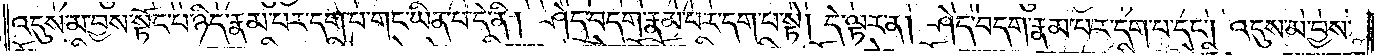འདུས་མ་བྱས་སྟོང་པ་ཉིད་རྣམ་པར་དག་པ་གང་ཡིན་བ་དེ་ནི། ཤེད་བདག་རྣམ་པར་དག་པ་སྟེ། དེ་ལྟར་ན། ཤེད་བདག་རྣམ་པར་དག་པ་དང༌། འདུས་མ་བྱས་
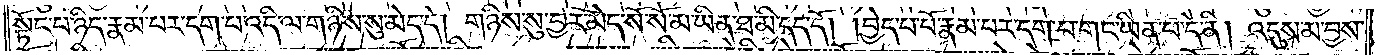སྟོང་པ་ཉིད་རྣམ་པར་དག་པ་འདི་ལ་གཉིས་སུ་མེད་དེ། གཉིས་སུ་བྱར་མེད་སོ་སོ་མ་ཡིན་ཐ་མི་དད་དོ། །བྱེད་པ་པོ་རྣམ་པར་དག་པ་གང་ཡིན་པ་དེ་ནི། འདུས་མ་བྱས་
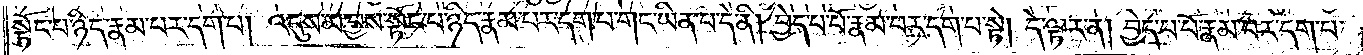སྟོང་པ་ཉིད་རྣམ་པར་དག་པ། འདུས་མ་བྱས་སྟོང་པ་ཉིད་རྣམ་པར་དག་པ་གང་ཡིན་པ་དེ་ནི། བྱེད་པ་པོ་རྣམ་པར་དག་པ་སྟེ། དེ་ལྟར་ན། བྱེད་པ་པོ་རྣམ་པར་དག་པ་གང་
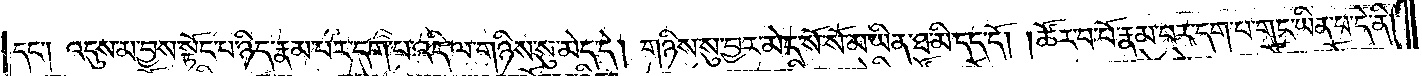དང༌། འདུས་མ་བྱས་སྟོང་པ་ཉིད་རྣམ་པར་དག་པ་འདི་ལ་གཉིས་སུ་མེད་དེ། གཉིས་སུ་བྱར་མེད་སོ་སོ་མ་ཡིན་ཐ་མི་དད་དོ། །ཚོར་བ་པོ་རྣམ་པར་དག་པ་གང་ཡིན་པ་དེ་ནི།
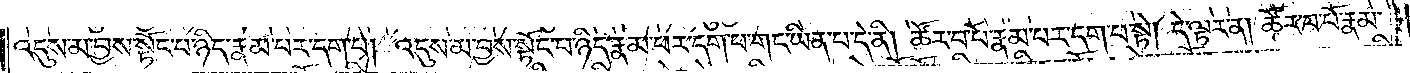འདུས་མ་བྱས་སྟོང་པ་ཉིད་རྣམ་པར་དག་པ། འདུས་མ་བྱས་སྟོང་པ་ཉིད་རྣམ་པར་དག་པ་གང་ཡིན་པ་དེ་ནི། ཚོར་པ་པོ་རྣམ་པར་དག་པ་སྟེ། དེ་ལྟར་ན། ཚོར་བ་པོ་རྣམ་
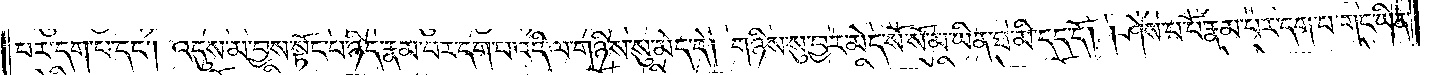པར་དག་པ་དང༌། འདུས་མ་བྱས་སྟོང་པ་ཉིད་རྣམ་པར་དག་པ་འདི་ལ་གཉིས་སུ་མེད་དེ། གཉིས་སུ་བྱར་མེད་སོ་སོ་མ་ཡིན་ཐ་མི་དད་དོ། །ཤེས་པ་པོ་རྣམ་པར་དག་པར་གང་ཡིན་
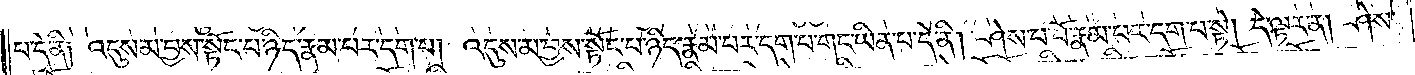པ་དེ་ནི། འདུས་མ་བྱས་སྟོང་པ་ཉིད་རྣམ་པར་དག་པ། འདུས་མ་བྱས་སྟོང་པ་ཉིད་རྣམ་པར་དག་པ་གང་ཡིན་པ་དེ་ནི། ཤེས་པ་པོ་རྣམ་པར་དག་པ་སྟེ། དེ་ལྟར་ན། ཤེས་
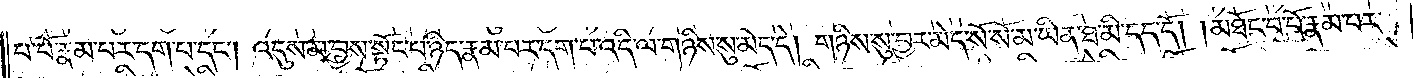པ་པོ་རྣམ་པར་དག་པ་དང༌། འདུས་མ་བྱས་སྟོང་པ་ཉིད་རྣམ་པར་དག་པ་འདི་ལ་གཉིས་སུ་མེད་དེ། གཉིས་སུ་བྱར་མེད་སོ་སོ་མ་ཡིན་ཐ་མི་དད་དོ། །མཐོང་བ་པོ་རྣམ་པར་
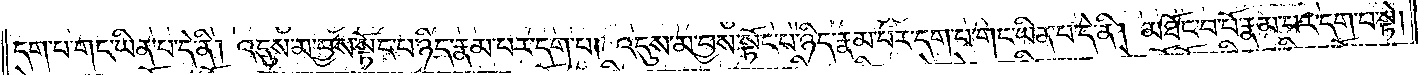དག་པ་གང་ཡིན་པ་དེ་ནི། འདུས་མ་བྱས་སྟོང་པ་ཉིད་རྣམ་པར་དག་པ། འདུས་མ་བྱས་སྟོང་པ་ཉིད་རྣམ་པར་དག་པ་གང་ཡིན་པ་དེ་ནི། མཐོང་བ་པོ་རྣམ་པར་དག་པ་སྟེ།
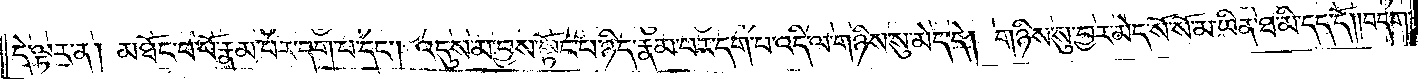དེ་ལྟར་ན། མཐོང་བ་པོ་རྣམ་པར་དག་པ་དང༌། འདུས་མ་བྱས་སྟོང་པ་ཉིད་རྣམ་པར་དག་པ་འདི་ལ་གཉིས་སུ་མེད་དེ། གཉིས་སུ་བྱར་མེད་སོ་སོ་མ་ཡིན་ཐ་མི་དད་དོ། །བདག་
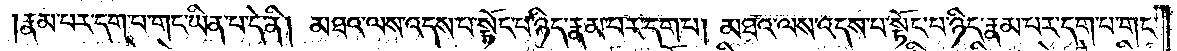རྣམ་པར་དག་པ་གང་ཡིན་པ་དེ་ནི། མཐའ་ལས་འདས་པ་སྟོང་པ་ཉིད་རྣམ་པར་དག་པ། མཐའ་ལས་འདས་པ་སྟོང་པ་ཉིད་རྣམ་པར་དག་པ་གང་
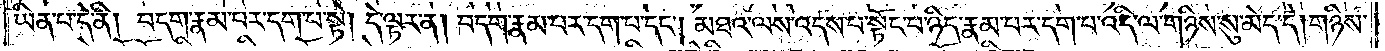ཡིན་པ་དེ་ནི། བདག་རྣམ་པར་དག་པ་སྟེ། དེ་ལྟར་ན། བདག་རྣམ་པར་དག་པ་དང༌། མཐའ་ལས་འདས་པ་སྟོང་པ་ཉིད་རྣམ་པར་དག་པ་འདི་ལ་གཉིས་སུ་མེད་དེ། གཉིས་
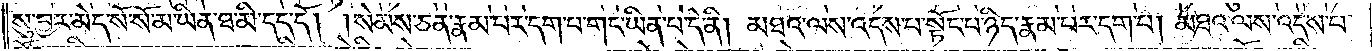སུ་བྱར་མེད་སོ་སོ་མ་ཡིན་ཐ་མི་དད་དོ། །སེམས་ཅན་རྣམ་པར་དག་པ་གང་ཡིན་པ་དེ་ནི། མཐའ་ལས་འདས་པ་སྟོང་པ་ཉིད་རྣམ་པར་དག་པ། མཐའ་ལས་འདས་པ་
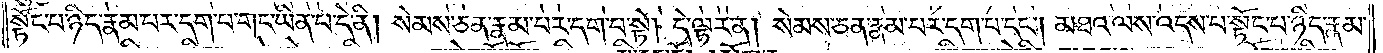སྟོང་པ་ཉིད་རྣམ་པར་དག་པ་གང་ཡིན་པ་དེ་ནི། སེམས་ཅན་རྣམ་པར་དག་པ་སྟེ། དེ་ལྟར་ན། སེམས་ཅན་རྣམ་པར་དག་པ་དང༌། མཐའ་ལས་འདས་པ་སྟོང་པ་ཉིད་རྣམ་
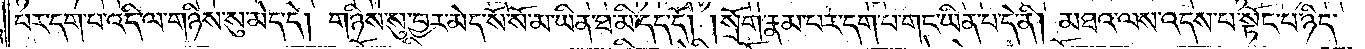པར་དག་པ་འདི་ལ་གཉིས་སུ་མེད་དེ། གཉིས་སུ་བྱར་མེད་སོ་སོ་མ་ཡིན་ཐ་མི་དད་དོ། །སྲོག་རྣམ་པར་དག་པ་གང་ཡིན་པ་དེ་ནི། མཐའ་ལས་འདས་པ་སྟོང་པ་ཉིད་
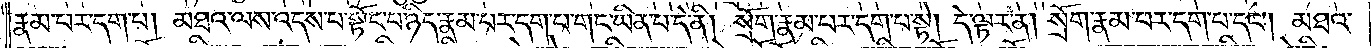རྣམ་པར་དག་པ། མཐའ་ལས་འདས་པ་སྟོང་པ་ཉིད་རྣམ་པར་དག་པ་གང་ཡིན་པ་དེ་ནི། སྲོག་རྣམ་པར་དག་པ་སྟེ། དེ་ལྟར་ན། སྲོག་རྣམ་པར་དག་པ་དང༌། མཐའ་
